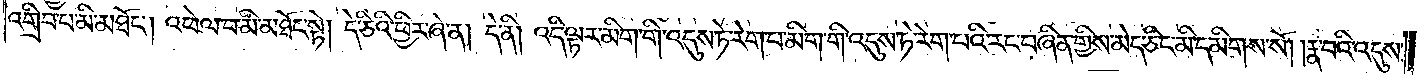འགྲིབ་པ་མི་མཐོང༌། འཕེལ་བ་མི་མཐོང་སྟེ། དེ་ཅིའི་ཕྱིར་ཞེ་ན། དེ་ནི། འདི་ལྟར་མིག་གི་འདུས་ཏེ་རེག་པ་མིག་གི་འདུས་ཏེ་རེག་པའི་རང་བཞིན་གྱིས་མེད་ཅིང་མི་དམིགས་སོ། །རྣ་བའི་འདུས་
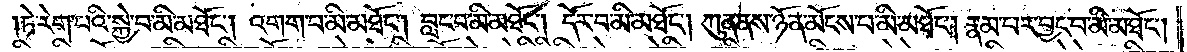ཏེ་རེག་པའི་སྐྱེ་བ་མི་མཐོང༌། འགག་པ་མི་མཐོང༌། བླང་བ་མི་མཐོང༌། དོར་བ་མི་མཐོང༌། ཀུན་ནས་ཉོན་མོངས་པ་མི་མཐོང༌། རྣམ་པར་བྱང་བ་མི་མཐོང༌།
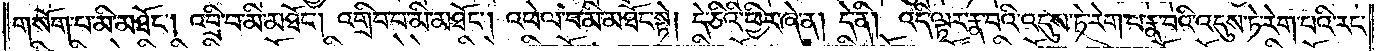གསོག་པ་མི་མཐོང༌། འབྲི་བ་མི་མཐོང༌། འགྲིབ་པ་མི་མཐོང༌། འཕེལ་བ་མི་མཐོང་སྟེ། དེ་ཅིའི་ཕྱིར་ཞེ་ན། དེ་ནི། འདི་ལྟར་རྣ་བའི་འདུས་ཏེ་རེག་པ་རྣ་བའི་འདུས་ཏེ་རེག་པའི་རང་
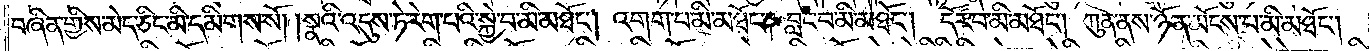བཞིན་གྱིས་མེད་ཅིང་མི་དམིགས་སོ། །སྣའི་འདུས་ཏེ་རེག་པའི་སྐྱེ་བ་མི་མཐོང༌། འགག་པ་མི་མཐོང༌། བླང་བ་མི་མཐོང༌། དོར་བ་མི་མཐོང༌། ཀུན་ནས་ཉོན་མོངས་པ་མི་མཐོང༌།
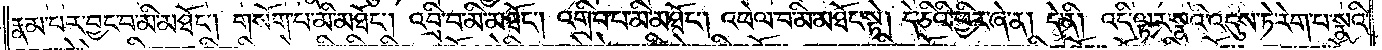རྣམ་པར་བྱང་བ་མི་མཐོང༌། གསོག་པ་མི་མཐོང༌། འབྲི་བ་མི་མཐོང༌། འགྲིབ་པ་མི་མཐོང༌། འཕེལ་བ་མི་མཐོང་སྟེ། དེ་ཅིའི་ཕྱིར་ཞེ་ན། དེ་ནི། འདི་ལྟར་སྣའི་འདུས་ཏེ་རེག་པ་སྣའི་
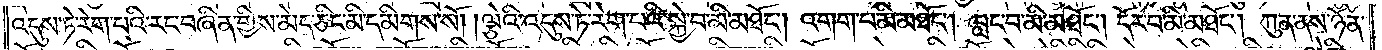འདུས་ཏེ་རེག་པའི་རང་བཞིན་གྱིས་མེད་ཅིང་མི་དམིགས་སོ། །ལྕེའི་འདུས་ཏེ་རེག་པའི་སྐྱེ་བ་མི་མཐོང༌། འགག་པ་མི་མཐོང༌། བླང་བ་མི་མཐོང༌། དོར་བ་མི་མཐོང༌། ཀུན་ནས་ཉོན་
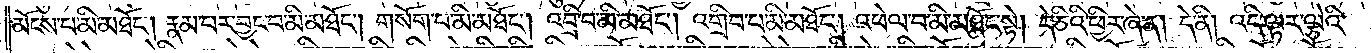མོངས་པ་མི་མཐོང༌། རྣམ་པར་བྱང་བ་མི་མཐོང༌། གསོག་པ་མི་མཐོང༌། འབྲི་བ་མི་མཐོང༌། འགྲིབ་པ་མི་མཐོང༌། འཕེལ་བ་མི་མཐོང་སྟེ། དེ་ཅིའི་ཕྱིར་ཞེ་ན། དེ་ནི། འདི་ལྟར་ལྕེའི་
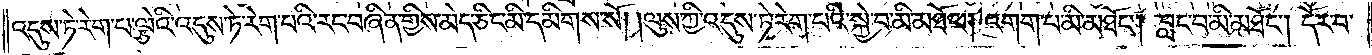འདུས་ཏེ་རེག་པ་ལྕེའི་འདུས་ཏེ་རེག་པའི་རང་བཞིན་གྱིས་མེད་ཅིང་མི་དམིགས་སོ། །ལུས་ཀྱི་འདུས་ཏེ་རེག་པའི་སྐྱེ་བ་མི་མཐོང༌། འགག་པ་མི་མཐོང༌། བླང་བ་མི་མཐོང༌། དོར་བ་
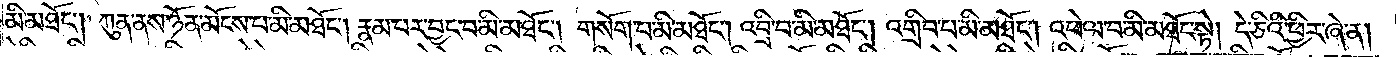མི་མཐོང༌། ཀུན་ནས་ཉོན་མོངས་པ་མི་མཐོང༌། རྣམ་པར་བྱང་བ་མི་མཐོང༌། གསོག་པ་མི་མཐོང༌། འབྲི་བ་མི་མཐོང༌། འགྲིབ་པ་མི་མཐོང༌། འཕེལ་བ་མི་མཐོང་སྟེ། དེ་ཅིའི་ཕྱིར་ཞེ་ན།
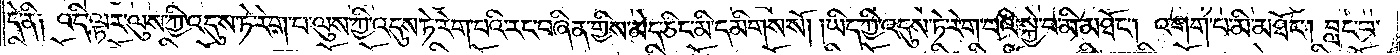དེ་ནི༏ འདི་ལྟར་ལུས་ཀྱི་འདུས་ཏེ་རེག་པ་ལུས་ཀྱི་འདུས་ཏེ་རེག་པའི་རང་བཞིན་གྱིས་མེད་ཅིང་མི་དམིགས་སོ། །ཡིད་ཀྱི་འདུས་ཏེ་རེག་པའི་སྐྱེ་བ་མི་མཐོང༌། འགག་པ་མི་མཐོང༌། བླང་བ་
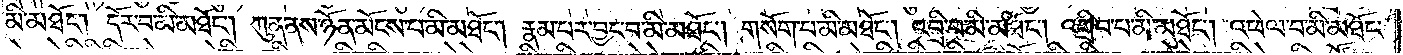མི་མཐོང༌། དོར་བ་མི་མཐོང༌། ཀུན་ནས་ཉོན་མོངས་པ་མི་མཐོང༌། རྣམ་པར་བྱང་བ་མི་མཐོང༌། གསོག་པ་མི་མཐོང༌། འབྲི་བ་མི་མཐོང༌། འགྲིབ་པ་མི་མཐོང༌། འཕེལ་བ་མི་མཐོང་
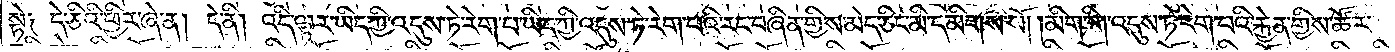སྟེ༑ དེ་ཅིའི་ཕྱིར་ཞེ་ན། དེ་ནི། འདི་ལྟར་ཡིད་ཀྱི་འདུས་ཏེ་རེག་པ་ཡིད་ཀྱི་འདུས་ཏེ་རེག་པའི་རང་བཞིན་གྱིས་མེད་ཅིང་མི་དམིགས་སོ། །མིག་གི་འདུས་ཏེ་རེག་པའི་རྐྱེན་གྱིས་ཚོར་
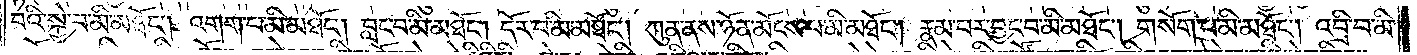བའི་སྐྱེ་བ་མི་མཐོང༌། འགག་པ་མི་མཐོང༌། བླང་བ་མི་མཐོང༌། དོར་བ་མི་མཐོང༌། ཀུན་ནས་ཉོན་མོངས་པ་མི་མཐོང༌། རྣམ་པར་བྱང་བ་མི་མཐོང༌། གསོག་པ་མི་མཐོང༌། འབྲི་བ་མི་
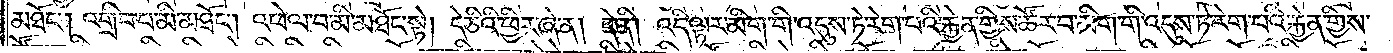མཐོང༌། འགྲིབ་པ་མི་མཐོང༌། འཕེལ་བ་མི་མཐོང་སྟེ། དེ་ཅིའི་ཕྱིར་ཞེ་ན། དེ་ནི། འདི་ལྟར་མིག་གི་འདུས་ཏེ་རེག་པའི་རྐྱེན་གྱིས་ཚོར་བ་མིག་གི་འདུས་ཏེ་རེག་པའི་རྐྱེན་གྱིས་
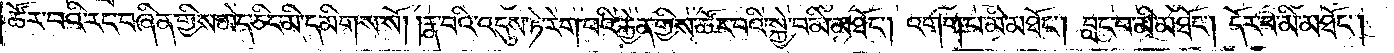ཚོར་བའི་རང་བཞིན་གྱིས་མེད་ཅིང་མི་དམིགས་སོ། །རྣ་བའི་འདུས་ཏེ་རེག་པའི་རྐྱེན་གྱིས་ཚོར་བའི་སྐྱེ་བ་མི་མཐོང༌། འགག་པ་མི་མཐོང༌། བླང་བ་མི་མཐོང༌། དོར་བ་མི་མཐོང༌།
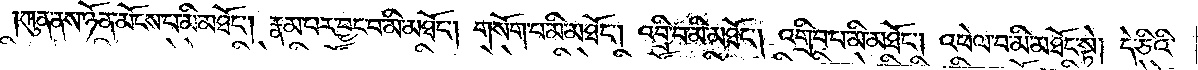ཀུན་ནས་ཉོན་མོངས་པ་མི་མཐོང༌། རྣམ་པར་བྱང་བ་མི་མཐོང༌། གསོག་པ་མི་མཐོང༌། འབྲི་བ་མི་མཐོང༌། འགྲིབ་པ་མི་མཐོང༌། འཕེལ་བ་མི་མཐོང་སྟེ། དེ་ཅིའི་
